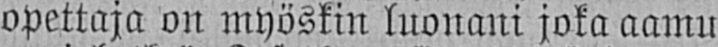opettaja on myöskin luonani joka aamu
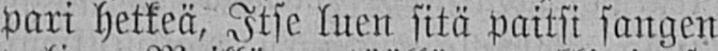pari hetkeä, Itse luen sitä paitsi sangen
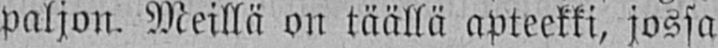paljon. Meillä on täällä apteekki, jossa
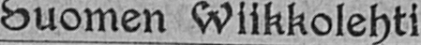Suomen Wiikkolehti
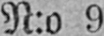N:o 9
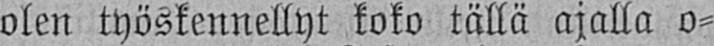olen työskennellyt koko tällä ajalla o-
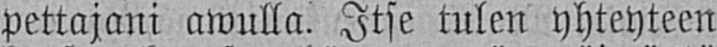pettajani awulla. Itse tulen yhteyteen
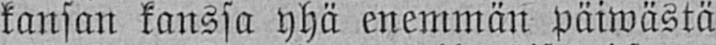kansan kanssa yhä enemmän päiwästä
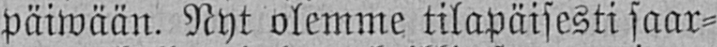päiwään. Nyt olemme tilapäisesti saar-
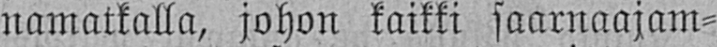namatkalla, johon kaikki saarnaajam-
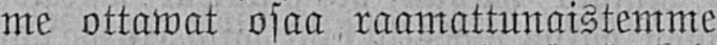me ottawat osaa raamattunaistemme
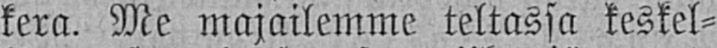kera. Me majailemme teltassa keskel-
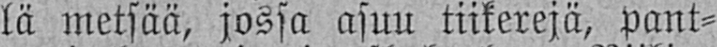lä metsää, jossa asuu tiikerejä, pant-
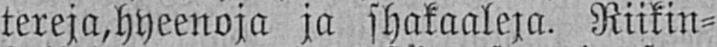tereja, hyeenoja ja shakaaleja. Riikin-
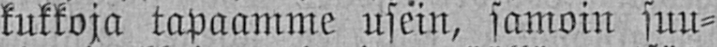kukkoja tapaamme usein, samoin suu-
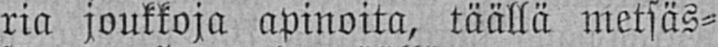ria joukkoja apinoita, täällä metsäs-
